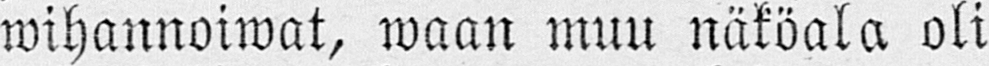wihannoiwat, waan muu näköala oli
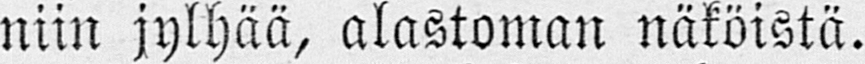niin jylhää, alastoman näköistä.
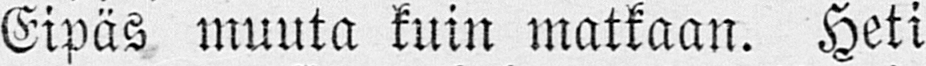Eipäs muuta kuin matkaan. Heti
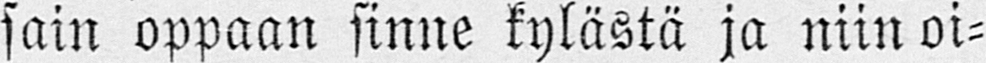sain oppaan sinne kylästä ja niin oi-
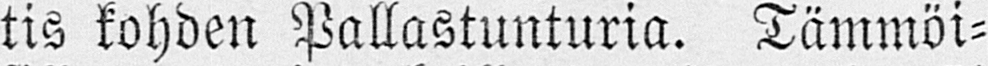tis kohden Pallastunturia. Tämmöi-
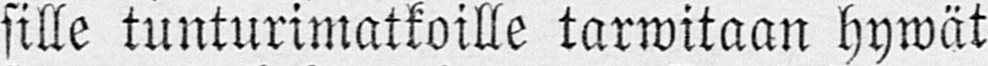sille tunturimatkoille tarwitaan hywät
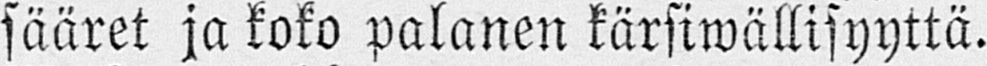sääret ja koko palanen kärsiwällisyyttä.
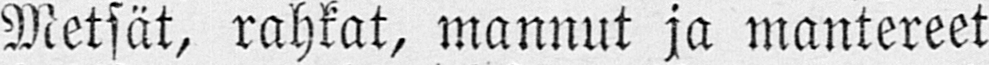Metsät, rahkat, mannut ja mantereet
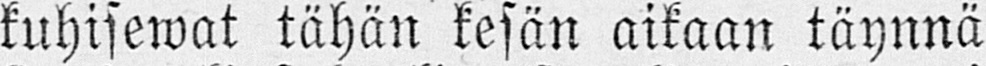kuhisewat tähän kesän aikaan täynnä
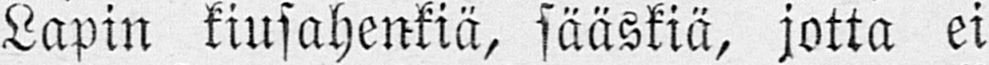Lapin kiusahenkiä, sääskiä, jotta ei
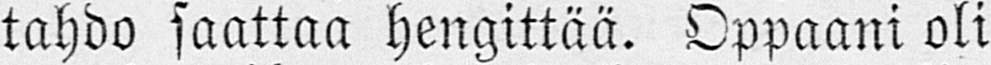tahdo saattaa hengittää. Oppaani oli
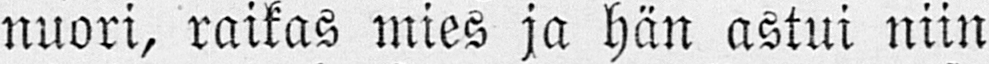nuori, raikas mies ja hän astui niin
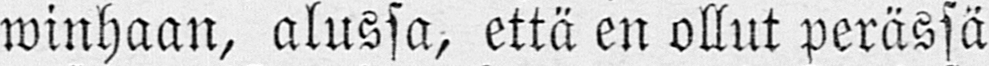winhaan, alussa, että en ollut perässä
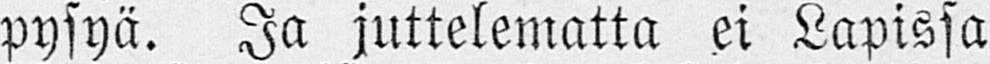pysyä. Ja juttelematta ei Lapissa
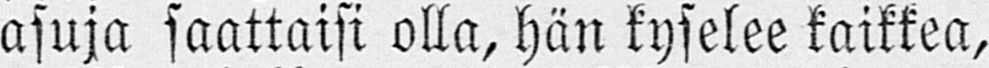asuja saattaisi olla, hän kyselee kaikkea,
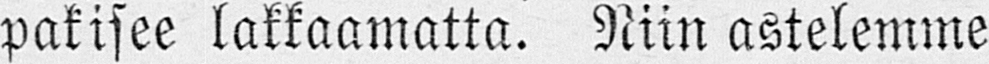pakisee lakkaamatta. Niin astelemme
